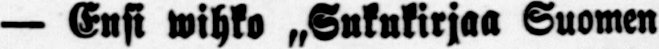— Ensi wihko Suomen
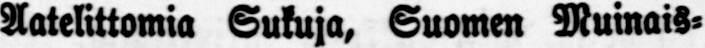Aatelittomia Sukuja, Suomen Muinais-
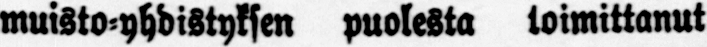muisto-yhdisdyksen puolesta toimittanut
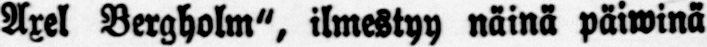Axel Bergholm", ilmestyy näinä päiwinä
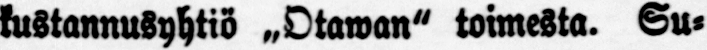kustannusyhtiö »Otawan" toimesta. Su-
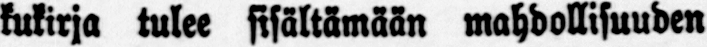kukirja tulee sisältämään mahdollisuuden
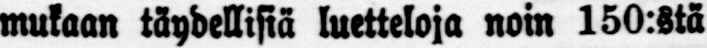mukaan täydellisiä luetteloja noin 150:stä
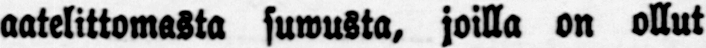aatelittomasta suwusta, joilla on ollut
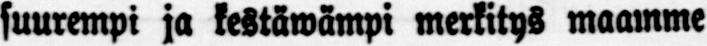suurempi ja kestäwämpi merkitys maamme
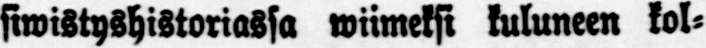siwistyshistoriassa wiimeksi kuluneen kol-
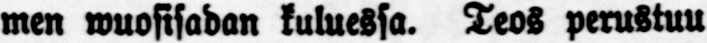men wuosisadan kuluessa. Teos perustuu
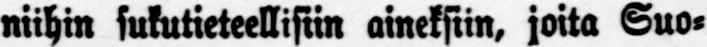niihin sukutieteellisiin aineksiin, joita Suo-
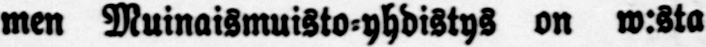men Muinaismuisto-yhdistys on w:sta
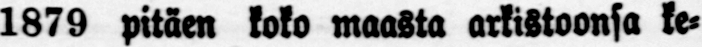1879 pitäen koko maasta arkistoonsa ke-
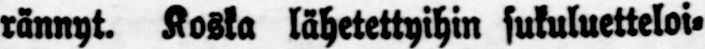rännyt. Koska lähetettyihin sukuluetteloi-
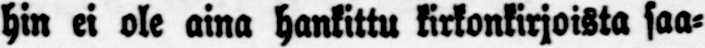hin ei ole aina hankittu kirkonkirjoista saa-
